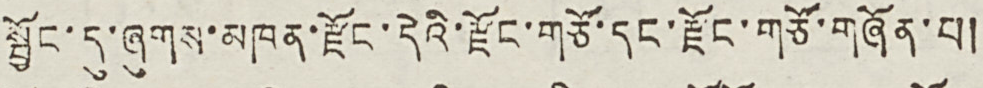སྦྱོང་དུ་ཞུགས་མཁན་རྫོང་དེའི་རྫོང་གཙོ་དང་རྫོང་གཙོ་གཞོན་པ།
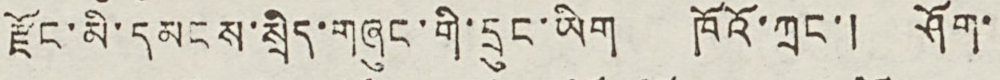རྫོང་མི་དམངས་སྲིད་གཞུང་གི་དྲུང་ཡིག ཁོའོ་ཀྲང་། ཤོག་
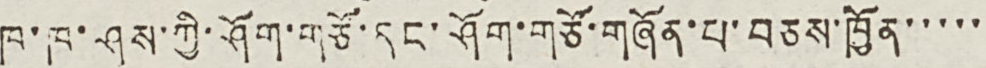ཁ་ཁ་ཤས་ཀྱི་ཤོག་གཙོ་དང་ཤོག་གཙོ་གཞོན་པ་བཅས་ཁྱོན་་་་་
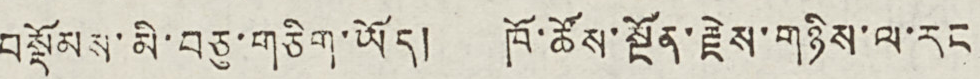བསྡོམས་མི་བཅུ་གཅིག་ཡོད། ཁོ་ཚོས་སྔོན་རྗེས་གཉིས་ལ་རང
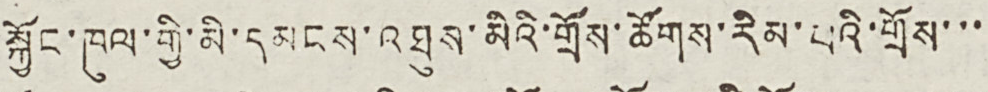སྐྱོང་ཁུལ་གྱི་མི་དམངས་འཐུས་མིའི་གྲོས་ཚོགས་རིམ་པའི་གྲོས་་་
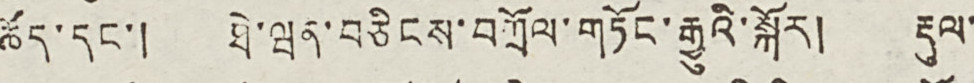ཚོད་དང་། ཐེ་ཝན་བཅིངས་བཀྲོལ་གཏོང་རྒྱུའི་སྐོར། རྡུལ་
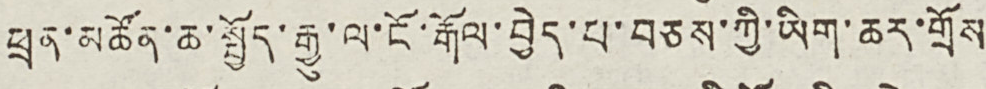ཕྲན་མཚོན་ཆ་སྤྱོད་རྒྱུ་ལ་ངོ་རྒོལ་བྱེད་པ་བཅས་ཀྱི་ཡིག་ཆར་གྲོས
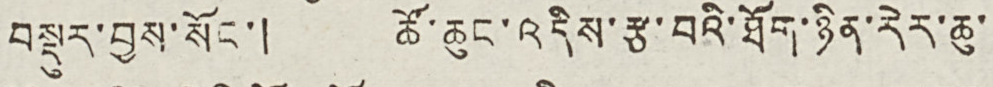བསྡུར་བྱས་སོང་། ཚོ་ཆུང་འདིས་རྩ་བའི་ཐོག་ཉིན་རེར་ཆུ་
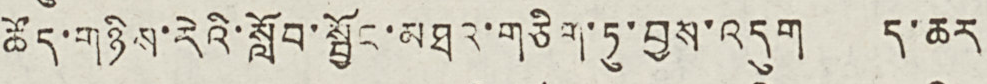ཚོད་གཉིས་རེའི་སློབ་སྦྱོང་མཐའ་གཅིག་ཏུ་བྱས་འདུག ད་ཆར
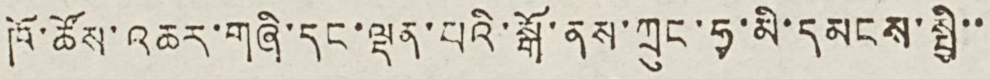ཁོ་ཚོས་འཆར་གཞི་དང་ལྡན་པའི་སྒོ་ནས་ཀྲུང་ཧྭ་མི་དམངས་སྤྱི་་
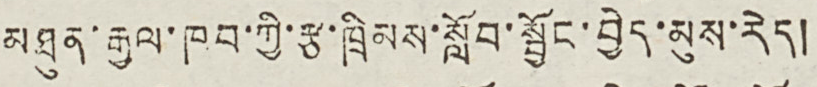མཐུན་རྒྱལ་ཁབ་ཀྱི་རྩ་ཁྲིམས་སློབ་སྦྱོང་བྱེད་མུས་རེད།
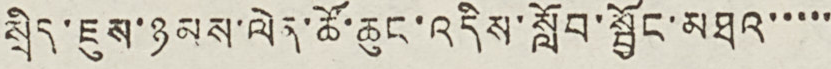སྲིད་ཇུས་ཉམས་ལེན་ཚོ་ཆུང་འདིས་སློབ་སྦྱོང་མཐའ་་་་་
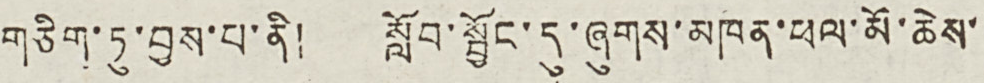གཅིག་ཏུ་བྱས་པ་ནི། སློབ་སྦྱོང་དུ་ཞུགས་མཁན་ཕལ་མོ་ཆེས་
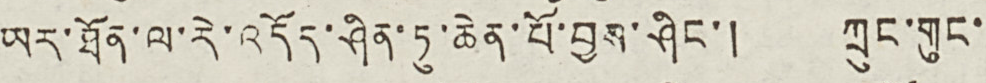ཡར་ཐོན་ལ་རེ་འདོད་ཤིན་ཏུ་ཆེན་པོ་བྱས་ཤིང་། ཀྲུང་གུང་
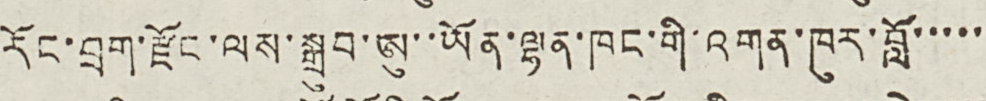རོང་བྲག་རྫོང་ལས་སྒྲུབ་ཨུ་་ཡོན་ལྷན་ཁང་གི་འགན་ཁུར་བློ་་་་་
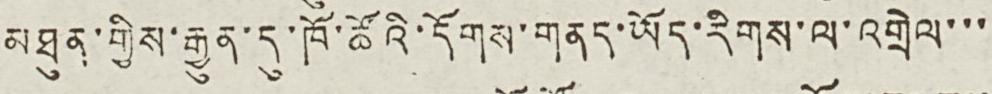མཐུན་གྱིས་རྒྱུན་དུ་ཁོ་ཚོའི་དོགས་གནད་ཡོད་རིགས་ལ་འགྲེལ་་་
